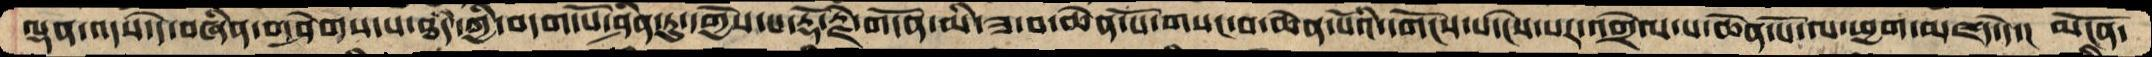ལྡན་འདས་དེ་བཞིན་གཤེགས་པ་ཐདཾ་ཀྱི་བདག་པོ་ཤིན་ཏུ་དགྱེས་པ་རྡོ་རྗེ་གདོན་མི་ཟ་བ་ཆེན་པོ་གསང་བ་ཆེན་པོའི་དགོངས་པ་ངེས་པར་འགྲེལ་པ་ཆེན་པོ་ལ་ཕྱག་མཛད་དེ་།  མངོན་
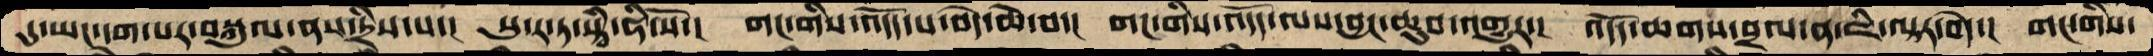དུ་ཡང་དག་པར་བསྐུལ་ནས་དྲིས་པ་།  སུ་ར་ཏ་སྟྭཾ་ཧི་སོ་།  གང་གིས་འདོད་པ་བདེ་ཆེ་བ་།  གང་གིས་འདོད་ལས་བྱང་ཆུབ་འགྱུར་།  འདོད་ཆགས་བྲལ་ན་ཇི་ལྟར་བདེ་།  གང་གིས་
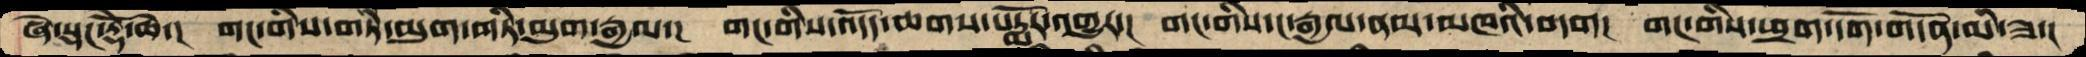ཞེ་སྡང་རྡོེ་ཆེ་།  གང་གིས་གཏི་མུག་གཏི་མུག་རྒྱལ་།  གང་གིས་འདོད་ཆགས་པདྨོར་འགྱུར་།  གང་གིས་ང་རྒྱལ་ནམ་མཁའི་བདག།  གང་གིས་ཕྲག་དོག་གདོན་མི་ཟ་།
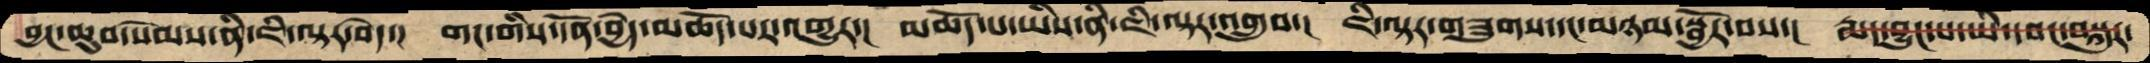བྱང་ཆུབ་སེམས་ནི་ཇི་ལྟར་བདེ་།  གང་གིས་དོན་བྱེད་མཆོད་པར་འགྱུར་།  མཆོད་པ་ཡིས་ནི་ཇི་ལྟར་འགྲུབ་།  ཇི་ལྟར་གཟུགས་དང་མཉམ་སྦྱོར་བས་།  རྨད་བྱུང་པ་ཡི་དབང་བསྐུར་
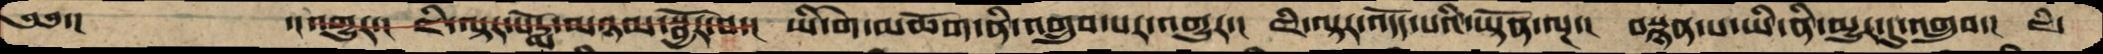༄༅་།          ་།འགྱུར་།  ཇི་ལྟར་པདྨོ་མཉམ་སྦྱོར་བ་།  ཡི་གེ་མཆོག་ནི་འགྲུབ་པར་འགྱུར་།  ཇི་ལྟར་འདོད་པའི་ཡྟོན་ལྔ་།  བསྙན་པ་ཡི་ནི་མྱུར་དུ་འགྲུབ་།  ཇི་
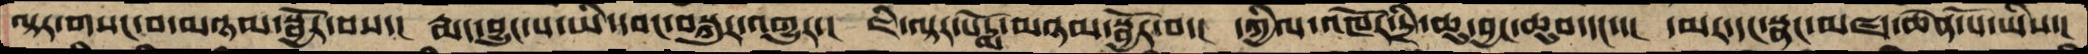ལྟར་གསང་བ་མཉམ་སྦྱོར་བས་།  རྨད་བྱུང་པ་ཡི་དབང་བསྐུར་འགྱུར་།  ཇི་ལྟར་པདྨོ་མཉམ་སྦྱོར་བ་།  དཀྱིལ་འཁོར་དྲི་ཆུ་བྱང་ཆུབ་དང་་།  དམར་དང་སྣང་མཛད་ཆེན་པོ་ཡིས་།
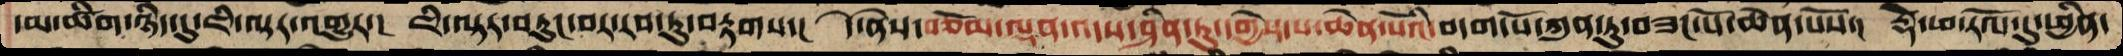དམ་ཚིག་ཉིད་དུ་ཇི་ལྟར་འགྱུར་།  ཇི་ལྟར་བཏུང་བར་རབ་ཏུ་བརྟགས་།  དེ་ནེས་བཅོམ་ལྡན་འདས་ཤིན་ཏུ་དགྱེས་པ་ཆེན་པོའི་བདག་པོ་ཀུན་ཏུ་བཟང་པོ་ཆེན་པོས་།  རྡོེ་ཕ་རོལ་དུ་ཕྱིན་
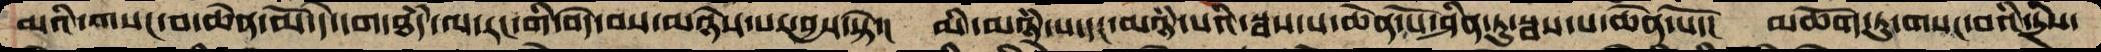མའི་གསང་བ་ཆེན་མོ་དེ་དག་ཐདཾ་ལ་རང་གི་བདེ་བས་མཉེས་པར་བྱས་སྟེ་།  མི་མཉཾ་པ་དང་མཉཾ་པའི་སྦས་པ་ཆེན་པོ་ཤིན་ཏུ་སྦས་པ་ཆེན་པོ་།  མཆོག་ཏུ་གསང་བའི་དྲིས་
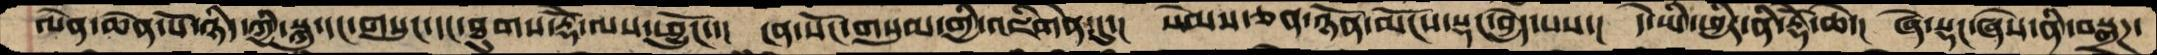ལེན་ཆེན་པོ་ཉིད་ཀྱི་སྐུ་དང་གསུང་དང་ཐུགས་རྡོེ་ལས་ཕྱུངོ་་།  ངན་སོང་གསུམ་གྱི་འཇིགེན་དུ་།  སེམས་ཅན་ཉོན་མོངས་སྡང་བྱེད་པས་།  དེ་ཡི་ཕྱིར་ནི་རྡོེ་ཆེ་།  ཞེ་སྡང་ཞེས་ནི་བསྒྲཌ་
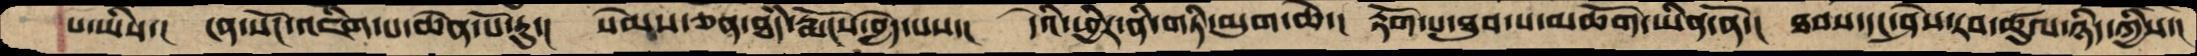པ་ཡིས་།  ངན་སོང་འཛིག་པ་ཆེན་པོ་རུ་།  སེམས་ཅན་ཐདཾ་རྨོངས་བྱེད་པས་།  དེའི་ཕྱིར་ནི་གཏི་མུག་ཆེ་།  རྟོག་པ་ཐུབ་པ་མཆོག་ཡིན་ནོ་།  ཐབས་དང་ཤེས་རབ་ཚུལ་ཉིད་ཀྱིས་།
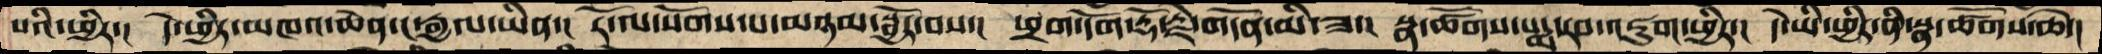པའི་ཕྱིར་།  དེ་ཕྱིར་མཁའ་ཆེན་ང་རྒྱལ་ཡིན་།  རོ་ལ་སོགས་པ་མཉམ་སྦྱོར་བས་།  ཕྲག་དོག་རྡོ་རྗེ་གདོན་མི་ཟ་།  སྣ་ཚོགས་པདྨ་རབ་འཇུག་ཕྱིར་།  དེ་ཡི་ཕྱིར་ནི་སྣ་ཚོགས་ཆེ་།
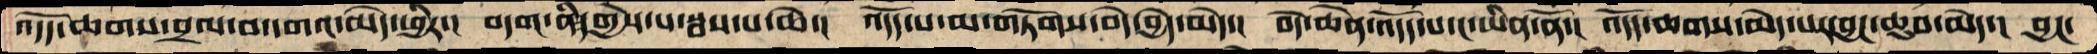འདོད་ཆགས་བྲལ་བ་དགའ་མེད་ཕྱིར་།  བདག་ནི་དགྱེས་པ་སྦས་པ་ཆེ་།  འདོད་པ་མ་གཏོགས་བདེ་བྱེད་མེད་།  བདེ་ཆེན་འདོད་པ་ང་ཡིན་ནོ་།  འདོད་ཆགས་མེད་པར་བྱང་ཆུབ་མེད་།  བྱང་
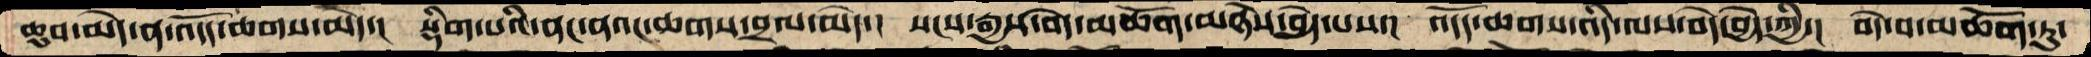ཆུབ་མེད་ན་འདོད་ཆགས་མེད་།  སྡིག་པའི་ནང་ནའང་ཆགས་བྲལ་མེད་།  སངས་རྒྱས་བདེ་མཆོག་མཉེས་བྱེད་པས་།  འདོད་ཆགས་འདི་ལས་བདེ་བྱེད་ཀྱི་།  བདེ་བ་མཆོག་ཏུ་
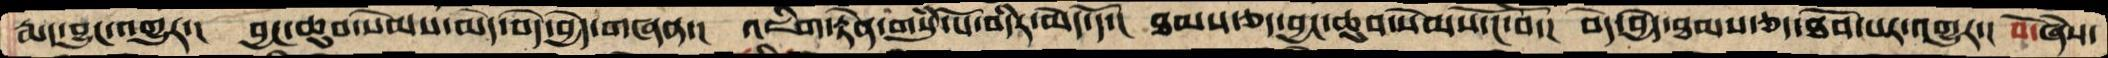རྨད་བྱུང་འགྱུར་།  བྱང་ཆུབ་སེམས་མེད་བདེ་བྱེད་གཞན་།  འཇིག་རྟེན་གསུཾ་པོ་འདིར་མེད་དོ་།  ཐམས་ཅད་བྱང་ཆུབ་སེམས་ངོ་བོ་།  བདེ་བྱེད་ཐམས་ཅད་ཐོབ་པར་འགྱུར་།  བོ་ཞེས་
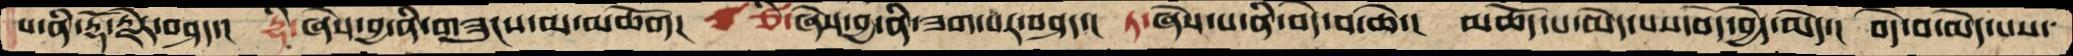པ་ནི་རྡོ་རྗེར་བཤད་།  དྷི་ཞེས་བྱ་ནི་གཟུངས་མ་མཆོག།   ཙི་ཞེས་བྱ་ནི་ཟག་པར་བཤད་།  ཏ་ཞེས་པ་ནི་བདེ་བ་ཆེ་།  མཆོད་པ་མེད་པས་བདེ་བྱེད་མེད་།  བདེ་བ་མེད་པས་
